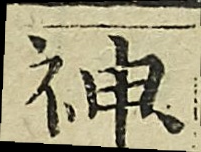神
